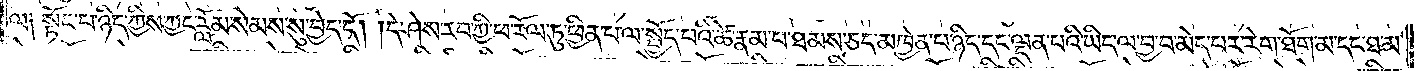ལ༑ སྟོང་པ་ཉིད་ཀྱིས་ཀྱང་རློམ་སེམས་སུ་བྱེད་དོ། །དེ་ཤེས་རབ་ཀྱི་ཕ་རོལ་ཏུ་ཕྱིན་པ་ལ་སྤྱོད་པའི་ཚེ་རྣམ་པ་ཐམས་ཅད་མཁྱེན་པ་ཉིད་དང་ལྡན་པའི་ཡིད་ལ་བྱ་བ་མེད་པར་རེག་ཐོག་མ་དང་ཐ་མ་
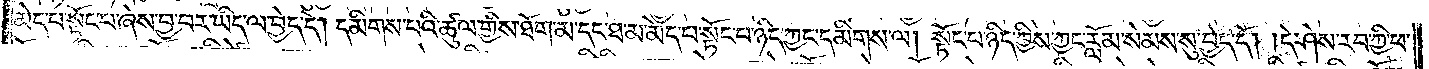མེད་པ་སྟོང་པ་ཞེས་བྱ་བར་ཡིད་ལ་བྱེད་དོ། དམིགས་པའི་ཚུལ་གྱིས་ཐོག་མ་དང་ཐ་མ་མེད་པ་སྟོང་པ་ཉིད་ཀྱང་དམིགས་ལ། སྟོང་པ་ཉིད་ཀྱིས་ཀྱང་རློམ་སེམས་སུ་བྱེད་དོ། །དེ་ཤེས་རབ་ཀྱི་ཕ་
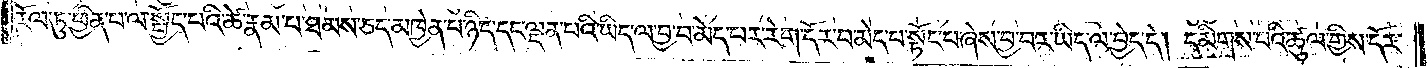རོལ་ཏུ་ཕྱིན་པ་ལ་སྤྱོད་པའི་ཚེ་རྣམ་པ་ཐམས་ཅད་མཁྱེན་པ་ཉིད་དང་ལྡན་པའི་ཡིད་ལ་བྱ་བ་མེད་པར་རེག་དོར་བ་མེད་པ་སྟོང་པ་ཞེས་བྱ་བར་ཡིད་ལ་བྱེད་དེ། དམིགས་པའི་ཚུལ་གྱིས་དོར་
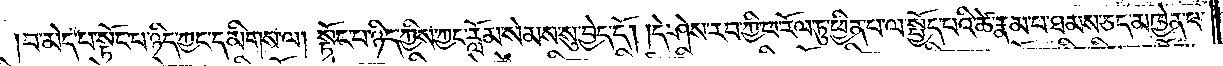བ་མེད་པ་སྟོང་པ་ཉིད་ཀྱང་དམིགས་ལ། སྟོང་པ་ཉིད་ཀྱིས་ཀྱང་རློམ་སེམས་སུ་བྱེད་དོ། །དེ་ཤེས་རབ་ཀྱི་ཕ་རོལ་ཏུ་ཕྱིན་པ་ལ་སྤྱོད་པའི་ཚེ་རྣམ་པ་ཐམས་ཅད་མཁྱེན་པ་
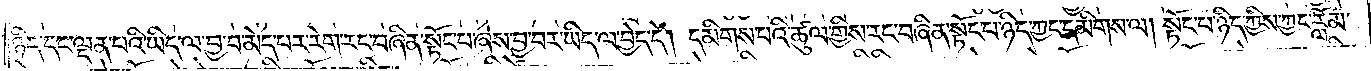ཉིད་དང་ལྡན་པའི་ཡིད་ལ་བྱ་བ་མེད་པར་རེག་རང་བཞིན་སྟོང་པ་ཞེས་བྱ་བར་ཡིད་ལ་བྱེད་དེ། དམིགས་པའི་ཚུལ་གྱིས་རང་བཞིན་སྟོང་པ་ཉིད་ཀྱང་དམིགས་ལ། སྟོང་པ་ཉིད་ཀྱིས་ཀྱང་རློམ་
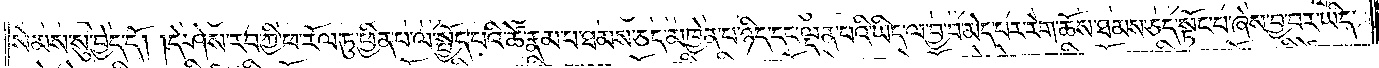སེམས་སུ་བྱེད་དོ། །དེ་ཤེས་རབ་ཀྱི་ཕ་རོལ་ཏུ་ཕྱིན་པ་ལ་སྤྱོད་པའི་ཚེ་རྣམ་པ་ཐམས་ཅད་མཁྱེན་པ་ཉིད་དང་ལྡན་པའི་ཡིད་ལ་བྱ་བ་མེད་པར་རེག་ཆོས་ཐམས་ཅད་སྟོང་པ་ཞེས་བྱ་བར་ཡིད་
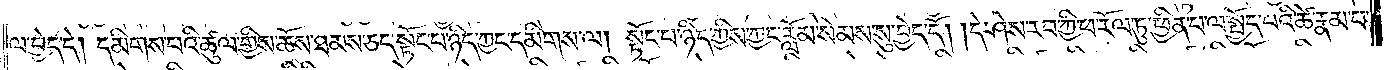ལ་བྱེད་དེ། དམིགས་པའི་ཚུལ་གྱིས་ཆོས་ཐམས་ཅད་སྟོང་པ་ཉིད་ཀྱང་དམིགས་ལ། སྟོང་པ་ཉིད་ཀྱིས་ཀྱང་རློམ་སེམས་སུ་བྱེད་དོ། །དེ་ཤེས་རབ་ཀྱི་ཕ་རོལ་ཏུ་ཕྱིན་པ་ལ་སྤྱོད་པའི་ཚེ་རྣམ་པ་
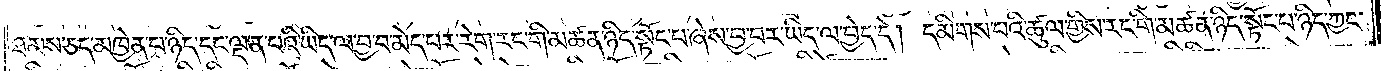ཐམས་ཅད་མཁྱེན་པ་ཉིད་དང་ལྡན་པའི་ཡིད་ལ་བྱ་བ་མེད་པར་རེག་རང་གི་མཚན་ཉིད་སྟོང་པ་ཞེས་བྱ་བར་ཡིད་ལ་བྱེད་དེ། དམིགས་པའི་ཚུལ་གྱིས་རང་གི་མཚན་ཉིད་སྟོང་པ་ཉིད་ཀྱང་
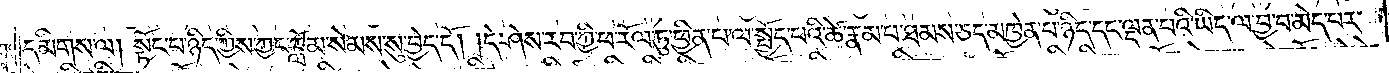དམིགས་ལ། སྟོང་པ་ཉིད་ཀྱིས་ཀྱང་རློམ་སེམས་སུ་བྱེད་དོ། །དེ་ཤེས་རབ་ཀྱི་ཕ་རོལ་ཏུ་ཕྱིན་པ་ལ་སྤྱོད་པའི་ཚེ་རྣམ་པ་ཐམས་ཅད་མཁྱེན་པ་ཉིད་དང་ལྡན་པའི་ཡིད་ལ་བྱ་བ་མེད་པར་
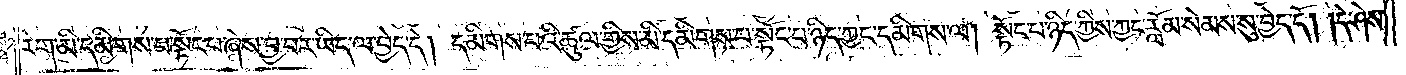རེག་མི་དམིགས་པ་སྟོང་པ་ཞེས་བྱ་བར་ཡིད་ལ་བྱེད་དེ། དམིགས་པའི་ཚུལ་གྱིས་མི་དམིགས་པ་སྟོང་པ་ཉིད་ཀྱང་དམིགས་ལ། སྟོང་པ་ཉིད་ཀྱིས་ཀྱང་རློམ་སེམས་སུ་བྱེད་དོ། །དེ་ཤེས་
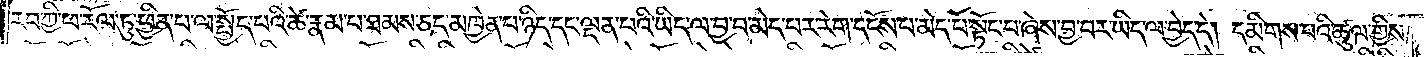རབ་ཀྱི་ཕ་རོལ་ཏུ་ཕྱིན་པ་ལ་སྤྱོད་པའི་ཚེ་རྣམ་པ་ཐམས་ཅད་མཁྱེན་པ་ཉིད་དང་ལྡན་པའི་ཡིད་ལ་བྱ་བ་མེད་པར་རེག་དངོས་པོ་མེད་པོ་སྟོང་པ་ཞེས་བྱ་བར་ཡིད་ལ་བྱེད་དེ། དམིགས་པའི་ཚུལ་གྱིས་
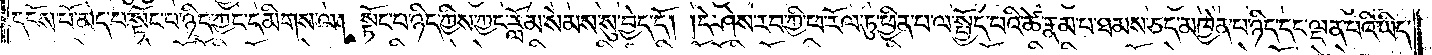དངོས་པོ་མེད་པ་སྟོང་པ་ཉིད་ཀྱང་དམིགས་ལ། སྟོང་པ་ཉིད་ཀྱིས་ཀྱང་རློམ་སེམས་སུ་བྱེད་དོ། །དེ་ཤེས་རབ་ཀྱི་ཕ་རོལ་ཏུ་ཕྱིན་པ་ལ་སྤྱོད་པའི་ཚེ་རྣམ་པ་ཐམས་ཅད་མཁྱེན་པ་ཉིད་དང་ལྡན་པའི་ཡིད་
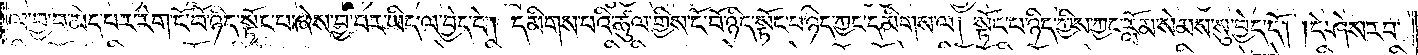ལ་བྱ་བ་མེད་པར་རེག་ངོ་བོ་ཉིད་སྟོང་པ་ཞེས་བྱ་བར་ཡིད་ལ་བྱེད་དེ། དམིགས་པའི་ཚུལ་གྱིས་ངོ་བོ་ཉིད་སྟོང་པ་ཉིད་ཀྱང་དམིགས་ལ། སྟོང་པ་ཉིད་ཀྱིས་ཀྱང་རློམ་སེམས་སུ་བྱེད་དོ། །དེ་ཤེས་རབ་
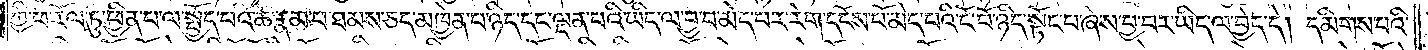ཀྱི་ཕ་རོལ་ཏུ་ཕྱིན་པ་ལ་སྤྱོད་པའི་ཚེ་རྣམ་པ་ཐམས་ཅད་མཁྱེན་པ་ཉིད་དང་ལྡན་པའི་ཡིད་ལ་བྱ་བ་མེད་པར་རེག་དངོས་པོ་མེད་པའི་ངོ་བོ་ཉིད་སྟོང་པ་ཞེས་བྱ་བར་ཡིད་ལ་བྱེད་དེ། དམིགས་པའི་
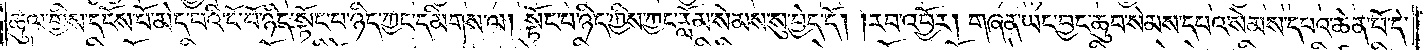ཚུལ་གྱིས་དངོས་པོ་མེད་པའི་ངོ་བོ་ཉིད་སྟོང་པ་ཉིད་ཀྱང་དམིགས་ལ། སྟོང་པ་ཉིད་ཀྱིས་ཀྱང་རློམ་སེམས་སུ་བྱེད་དོ། །རབ་འབྱོར། གཞན་ཡང་བྱང་ཆུབ་སེམས་དཔའ་སེམས་དཔའ་ཆེན་པོ་དེ་
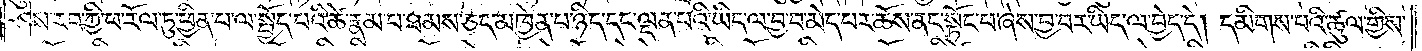ཤེས་རབ་ཀྱི་ཕ་རོལ་ཏུ་ཕྱིན་པ་ལ་སྤྱོད་པའི་ཚེ་རྣམ་པ་ཐམས་ཅད་མཁྱེན་པ་ཉིད་དང་ལྡན་པའི་ཡིད་ལ་བྱ་བ་མེད་པར་ཆོས་ནང་སྟོང་པ་ཞེས་བྱ་བར་ཡིད་ལ་བྱེད་དེ། དམིགས་པའི་ཚུལ་གྱིས་
